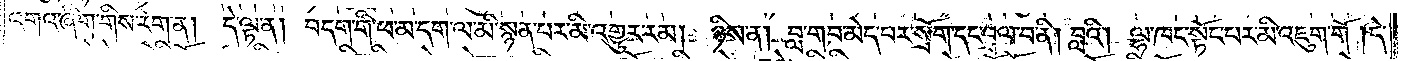འགའ་ཞིག་གིས་རེག་ན། དེ་ལྟ་ན། བདག་གི་ཕ་མ་དག་ལ་མི་སྙན་པར་མི་འགྱུར་རམ། ཉིས་ན། བླ་གབ་མེད་པར་སྲོག་དང་བྲལ་བ་ནི། བླའི། ལྷ་ཁང་སྟོང་པར་མི་འཇུག་གོ །དེ་
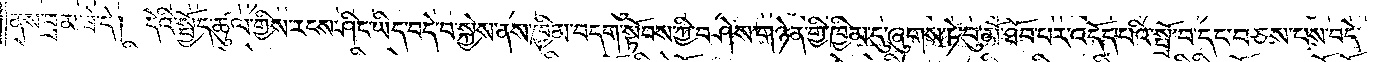ནས་བྲམ་ཟེ་དེ། དེའི་སྤྱོད་ཚུལ་གྱིས་རངས་ཤིང་ཡིད་བདེ་བ་སྐྱེས་ནས་ཁྱིམ་བདག་སྟོབས་ཀྱི་བཤེས་གཉེན་གྱི་ཁྱིམ་དུ་ཞུགས་ཏེ་བུ་མོ་ཐོབ་པར་འདོད་པའི་སྤྲོ་བ་དང་བཅས་པས་བདེ་
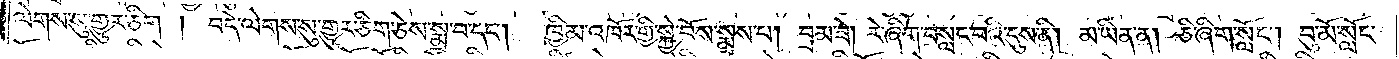ལེགས་སུ་གྱུར་ཅིག། བདེ་ལེགས་སུ་གྱུར་ཅིག་ཅེས་སྨྲ་བ་དང༌། ཁྱིམ་འཁོར་གྱི་སྐྱེ་བོས་སྨྲས་པ། བྲམ་ཟེ། རེ་ཞིག་བསླང་བའི་དུས་ནི། མ་ཡིན་ན། ཅི་ཞིག་སློང༌། བུ་མོ་སློང་
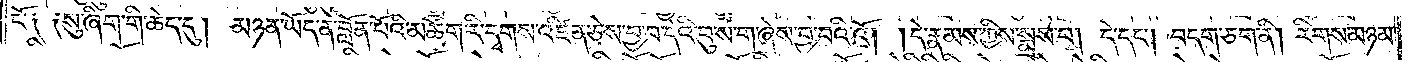ངོ༑ ༑སུ་ཞིག་གི་ཆེད་དུ། མཉན་ཡོད་ན་བློན་པོའི་མཆོག་རི་དྭགས་འཛིན་ཅེས་བྱ་བ་དེའི་བུ་ས་ག་ཞེས་བྱ་བའི་འོ། །དེ་རྣམས་ཀྱིས་སྨྲས་པ། དེ་དང༌། བདག་ཅག་ནི། རིགས་མཉམ་
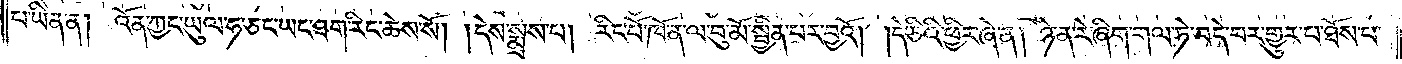པ་ཡིན་ན། འོན་ཀྱང་ཡུལ་ཧ་ཅང་ཡང་ཐག་རིང་ཆེས་སོ། །དེས་སྨྲས་པ། རིང་པོ་ཁོ་ན་ལ་བུ་མོ་སྦྱིན་པར་བྱའོ། །དེ་ཅིའི་ཕྱིར་ཞེ་ན། ཉེ་ན་རེ་ཞིག་གལ་ཏེ་བདེ་བར་གྱུར་པ་ཐོས་པ་
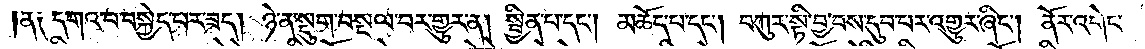།ན༑ དགའ་བ་བསྐྱེད་པར་ཟད། ཉེ་ན་སྡུག་བསྔལ་བར་གྱུར་ན། སྦྱིན་པ་དང༌། མཆོད་པ་དང༌། བཀུར་སྟི་བྱ་བས་དུབ་པར་འགྱུར་ཞིང༌། ནོར་འགེད་
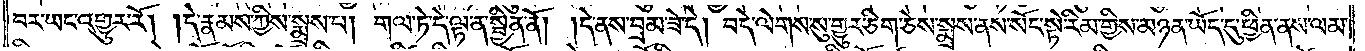བར་ཡང་འགྱུར་རོ། །དེ་རྣམས་ཀྱིས་སྨྲས་པ། གལ་ཏེ་དེ་ལྟ་ན་སྦྱིན་ནོ། །དེ་ནས་བྲམ་ཟེ་དེ། བདེ་ལེགས་སུ་གྱུར་ཅིག་ཅེས་སྨྲས་ནས་སོང་སྟེ་རིམ་གྱིས་མཉན་ཡོད་དུ་ཕྱིན་ནས་ལམ་
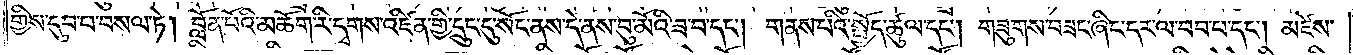གྱིས་དུབ་པ་བསལ་ཏེ། བློན་པོའི་མཆོག་རི་དྭགས་འཛིན་གྱི་དྲུང་དུ་སོང་ནས་དེ་ནས་བུ་མོའི་ཟ་བ་དང༌། གནས་པའི་སྤྱོད་ཚུལ་དང༌། གཟུགས་བཟང་ཞིང་དར་ལ་བབ་པ་དང༌། མཛེས་
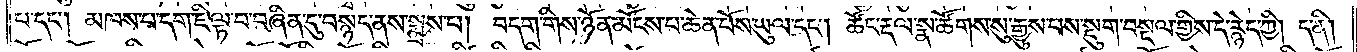པ་དང༌། མཁས་པ་དག་ཇི་ལྟ་བ་བཞིན་དུ་བསྙད་ནས་སྨྲས་པ། བདག་གིས་ཉོན་མོངས་པ་ཆེན་པོས་ཡུལ་དང༌། ཚོང་རྡལ་སྣ་ཚོགས་སུ་རྒྱུས་པས་སྡུག་བསྔལ་གྱིས་དེ་རྙེད་ཀྱི། ད་ནི།
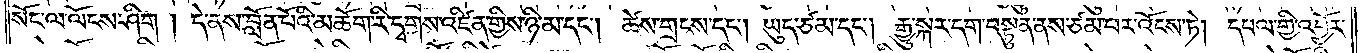སོང་ལ་ལོངས་ཤིག། དེ་ནས་བློན་པོའི་མཆོག་རི་དྭགས་འཛིན་གྱིས་ཉི་མ་དང༌། ཚེས་གྲངས་དང༌། ཡུད་ཙམ་དང༌། རྒྱུ་སྐར་དག་བསྟུན་ནས་ཙམ་པར་འོངས་ཏེ། དཔལ་གྱི་འབྱོར་
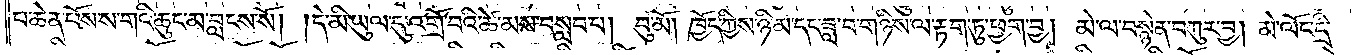པ་ཆེན་པོས་ས་གའི་ཆུང་མ་བླངས་སོ། །དེ་མི་ཡུལ་དུ་འགྲོ་བའི་ཚེ་མས་བསླབ་པ། བུ་མོ། ཁྱོད་ཀྱིས་ཉི་མ་དང་ཟླ་བ་གཉིས་ལ་རྟག་ཏུ་ཕྱག་བྱ། མེ་ལ་བསྙེན་བཀུར་བྱ། མེ་ལོང་དྲི་
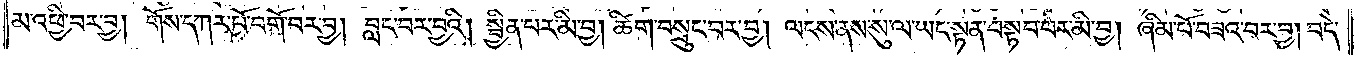མ་འཕྱི་བར་བྱ། གོས་དཀར་པོ་བགོ་བར་བྱ། བླང་བར་བྱའི། སྦྱིན་པར་མི་བྱ། ཚིག་བསྲུང་བར་བྱ། ལངས་ནས་སུ་ལ་ཡང་སྟན་བསྟབ་པར་མི་བྱ། ཞིམ་པོ་བཟའ་བར་བྱ། བདེ་
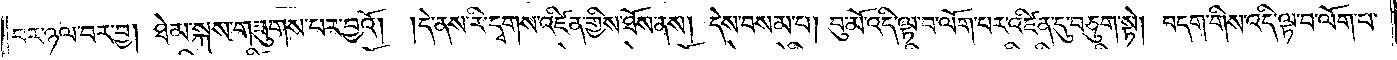བར་ཉལ་བར་བྱ། ཐེམ་སྐས་གཟུགས་པར་བྱའོ། །དེ་ནས་རི་དྭགས་འཛིན་གྱིས་ཐོས་ནས། དེས་བསམ་པ། བུ་མོ་འདི་ལྟ་བ་ལོག་པར་འཛིན་དུ་བཅུག་སྟེ། བདག་གིས་འདི་ལྟ་བ་ལོག་པ་
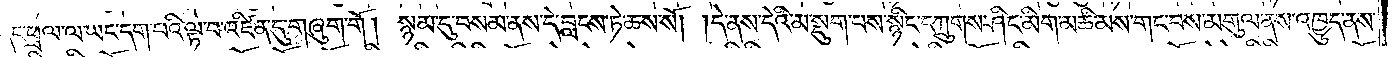དང་ཕྲལ་ལ་ཡང་དག་པའི་ལྟ་བ་འཛིན་དུ་གཞུག་གོ། སྙམ་དུ་བསམ་ནས་དེ་བླངས་ཏེ་ཆས་སོ། །དེ་ནས་དེའི་མ་སྡུག་པས་སྙིང་དཀྲུགས་ཤིང་མིག་མཆི་མས་གང་བས་མགུལ་ནས་འཁྱུད་ནས་
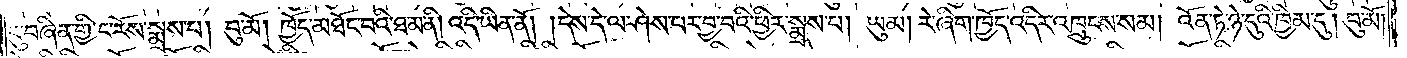ངུ་བཞིན་གྱི་ང་རོས་སྨྲས་པ། བུ་མོ། ཁྱོད་མཐོང་བའི་ཐ་མ་ནི། འདི་ཡིན་ནོ། །དེས་དེ་ལ་ཤེས་པར་བྱ་བའི་ཕྱིར་སྨྲས་པ། ཡུམ། རེ་ཞིག་ཁྱོད་འདིར་འཁྲུངས་སམ། འོན་ཏེ་ཉེ་དུའི་ཁྱིམ་དུ། བུ་མོ།
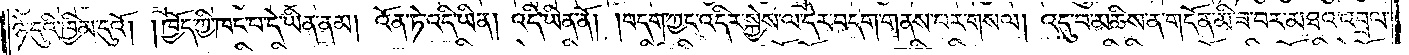ཉེ་དུའི་ཁྱིམ་དུའོ། །ཁྱོད་ཀྱི་ཁང་པ་དེ་ཡིན་ནམ། འོན་ཏེ་འདི་ཡིན། འདི་ཡིན་ནོ། །བདག་ཀྱང་འདིར་སྐྱེས་ལ་དེར་བདག་གནས་པར་གསལ། འདུ་བ་མཆིས་ན་གདོན་མི་ཟ་བར་མཐའ་འབྲལ་
